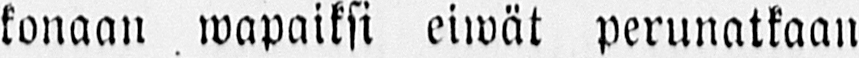konaan wapaiksi eiwät perunatkaan
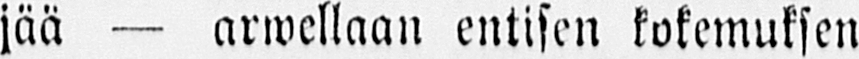jää — arwellaan entisen kokemuksen
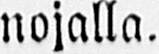nojalla.
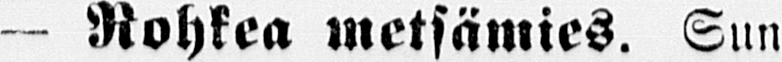— Rohkea metsämies. Sun-
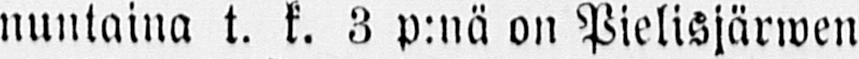nuntaina t. k. 3 p:nä on Pielisjärwen
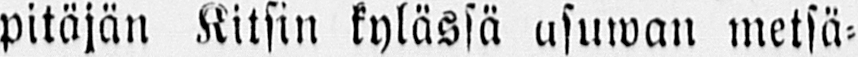pitäjän Kitsin kylässä asuwan metsä-
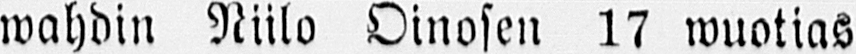wahdin Niilo Oinosen 17 wuotias
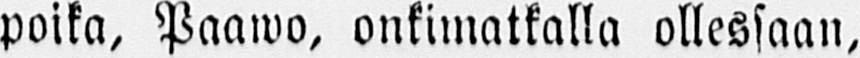poika, Paawo, onkimatkalla ollessaan,
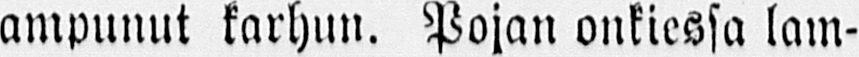ampunut karhun. Pojan onkiessa lam-
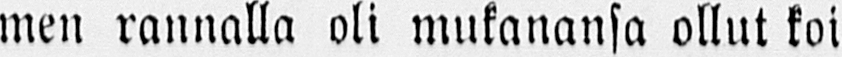men rannalla oli mukanansa ollut koi-
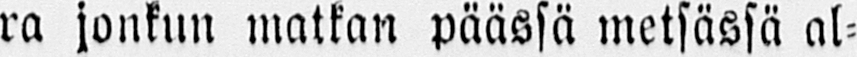ra jonkun matkan päässä metsässä al-
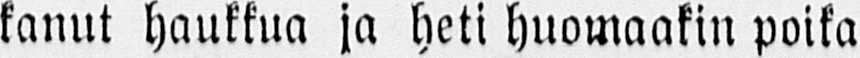kanut haukkua ja heti huomaakin poika
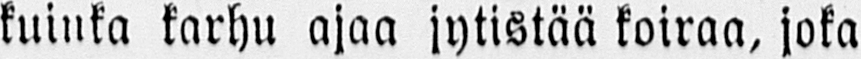kuinka karhu ajaa jytistää koiraa, joka
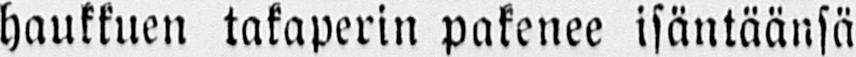haukkuen takaperin pakenee isäntäänsä
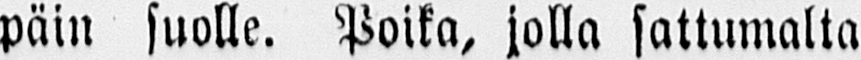päin suolle. Poika, jolla sattumalta
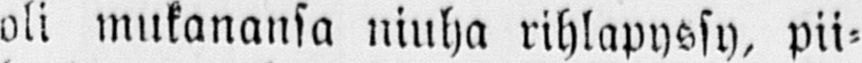oli mukanansa niuha rihlapyssy, pii-
